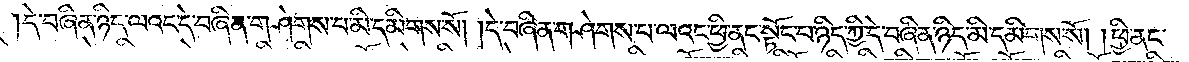དེ་བཞིན་ཉིད་ལའང་དེ་བཞིན་གཤེགས་པ་མི་དམིགས་སོ། །དེ་བཞིན་གཤེགས་པ་ལའང་ཕྱི་ནང་སྟོང་པ་ཉིད་ཀྱི་དེ་བཞིན་ཉིད་མི་དམིགས་སོ། །ཕྱི་ནང་
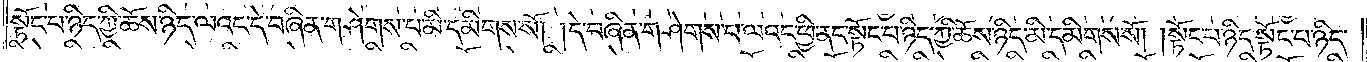སྟོང་པ་ཉིད་ཀྱི་ཆོས་ཉིད་ལའང་དེ་བཞིན་གཤེགས་པ་མི་དམིགས་སོ། །དེ་བཞིན་གཤེགས་པ་ལའང་ཕྱི་ནང་སྟོང་པ་ཉིད་ཀྱི་ཆོས་ཉིད་མི་དམིགས་སོ། །སྟོང་པ་ཉིད་སྟོང་པ་ཉིད་
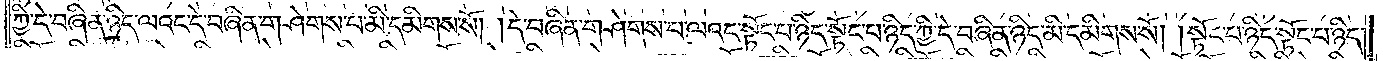ཀྱི་དེ་བཞིན་ཉིད་ལའང་དེ་བཞིན་གཤེགས་པ་མི་དམིགས་སོ། དེ་བཞིན་གཤེགས་པ་ལའང་སྟོང་པ་ཉིད་སྟོང་པ་ཉིད་ཀྱི་དེ་བཞིན་ཉིད་མི་དམིགས་སོ། །སྟོང་པ་ཉིད་སྟོང་པ་ཉིད་
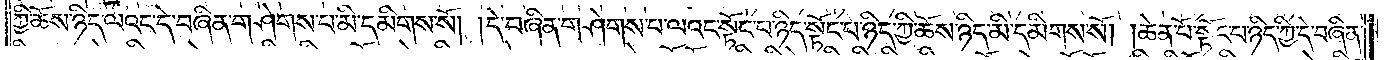ཀྱི་ཆོས་ཉིད་ལའང་དེ་བཞིན་གཤེགས་པ་མི་དམིགས་སོ། །དེ་བཞིན་གཤེགས་པ་ལའང་སྟོང་པ་ཉིད་སྟོང་པ་ཉིད་ཀྱི་ཆོས་ཉིད་མི་དམིགས་སོ། །ཆེན་པོ་སྟོང་པ་ཉིད་ཀྱི་དེ་བཞིན་
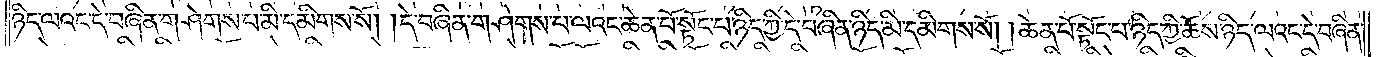ཉིད་ལའང་དེ་བཞིན་གཤེགས་པ་མི་དམིགས་སོ། །དེ་བཞིན་གཤེགས་པ་ལའང་ཆེན་པོ་སྟོང་པ་ཉིད་ཀྱི་དེ་བཞིན་ཉིད་མི་དམིགས་སོ། །ཆེན་པོ་སྟོང་པ་ཉིད་ཀྱི་ཆོས་ཉིད་ལའང་དེ་བཞིན་
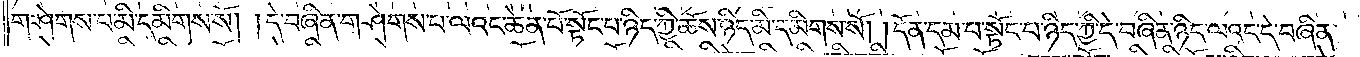གཤེགས་པ་མི་དམིགས་སོ། །དེ་བཞིན་གཤེགས་པ་ལའང་ཆེན་པོ་སྟོང་པ་ཉིད་ཀྱི་ཆོས་ཉིད་མི་དམིགས་སོ། །དོན་དམ་པ་སྟོང་པ་ཉིད་ཀྱི་དེ་བཞིན་ཉིད་ལའང་དེ་བཞིན་
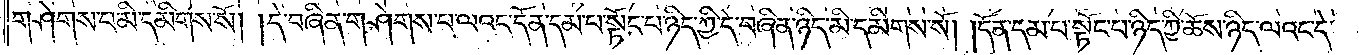གཤེགས་པ་མི་དམིགས་སོ། །དེ་བཞིན་གཤེགས་པ་ལའང་དོན་དམ་པ་སྟོང་པ་ཉིད་ཀྱི་དེ་བཞིན་ཉིད་མི་དམིགས་སོ། །དོན་དམ་པ་སྟོང་པ་ཉིད་ཀྱི་ཆོས་ཉིད་ལའང་དེ་
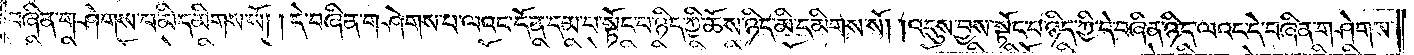བཞིན་གཤེགས་པ་མི་དམིགས་སོ། །དེ་བཞིན་གཤེགས་པ་ལའང་དོན་དམ་པ་སྟོང་པ་ཉིད་ཀྱི་ཆོས་ཉིད་མི་དམིགས་སོ། །འདུས་བྱས་སྟོང་པ་ཉིད་ཀྱི་དེ་བཞིན་ཉིད་ལའང་དེ་བཞིན་གཤེགས་
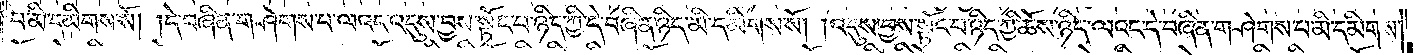པ་མི་དམིགས་སོ། །དེ་བཞིན་གཤེགས་པ་ལའང་འདུས་བྱས་སྟོང་པ་ཉིད་ཀྱི་དེ་བཞིན་ཉིད་མི་དམིགས་སོ། །འདུས་བྱས་སྟོང་པ་ཉིད་ཀྱི་ཆོས་ཉིད་ལའང་དེ་བཞིན་གཤེགས་པ་མི་དམིགས་
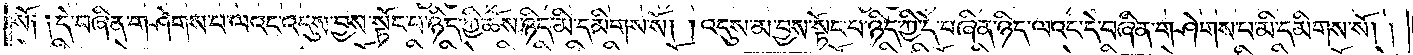སོ༑ ༑དེ་བཞིན་གཤེགས་པ་ལའང་འདུས་བྱས་སྟོང་པ་ཉིད་ཀྱི་ཆོས་ཉིད་མི་དམིགས་སོ། །འདུས་མ་བྱས་སྟོང་པ་ཉིད་ཀྱི་དེ་བཞིན་ཉིད་ལའང་དེ་བཞིན་གཤེགས་པ་མི་དམིགས་སོ། །
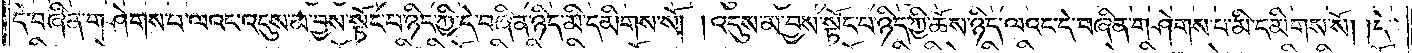དེ་བཞིན་གཤེགས་པ་ལའང་འདུས་མ་བྱས་སྟོང་པ་ཉིད་ཀྱི་དེ་བཞིན་ཉིད་མི་དམིགས་སོ། །འདུས་མ་བྱས་སྟོང་པ་ཉིད་ཀྱི་ཆོས་ཉིད་ལའང་དེ་བཞིན་གཤེགས་པ་མི་དམིགས་སོ། །དེ་
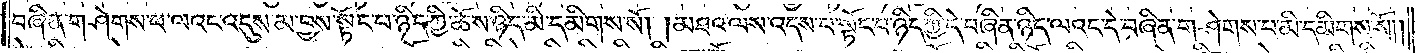བཞིན་གཤེགས་པ་ལའང་འདུས་མ་བྱས་སྟོང་པ་ཉིད་ཀྱི་ཆོས་ཉིད་མི་དམིགས་སོ། །མཐའ་ལས་འདས་པ་སྟོང་པ་ཉིད་ཀྱི་དེ་བཞིན་ཉིད་ལའང་དེ་བཞིན་གཤེགས་པ་མི་དམིགས་སོ༎
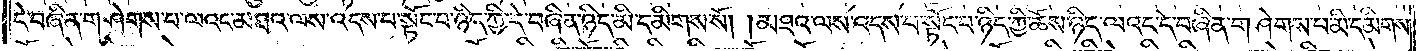དེ་བཞིན་གཤེགས་པ་ལའང་མཐའ་ལས་འདས་པ་སྟོང་པ་ཉིད་ཀྱི་དེ་བཞིན་ཉིད་མི་དམིགས་སོ། །མཐའ་ལས་འདས་པ་སྟོང་པ་ཉིད་ཀྱི་ཆོས་ཉིད་ལའང་དེ་བཞིན་གཤེགས་པ་མི་དམིགས་
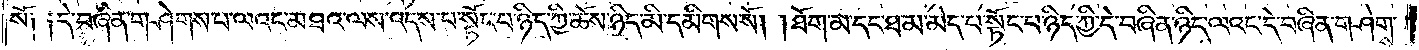སོ༑ ༑དེ་བཞིན་གཤེགས་པ་ལའང་མཐའ་ལས་འདས་པ་སྟོང་པ་ཉིད་ཀྱི་ཆོས་ཉིད་མི་དམིགས་སོ། །ཐོག་མ་དང་ཐ་མ་མེད་པ་སྟོང་པ་ཉིད་ཀྱི་དེ་བཞིན་ཉིད་ལའང་དེ་བཞིན་གཤེགས་
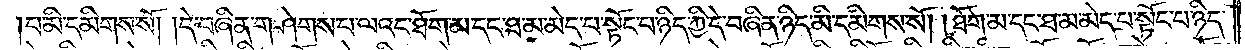པ་མི་དམིགས་སོ། །དེ་བཞིན་གཤེགས་པ་ལའང་ཐོག་མ་དང་ཐ་མ་མེད་པ་སྟོང་པ་ཉིད་ཀྱི་དེ་བཞིན་ཉིད་མི་དམིགས་སོ། །ཐོག་མ་དང་ཐ་མ་མེད་པ་སྟོང་པ་ཉིད་
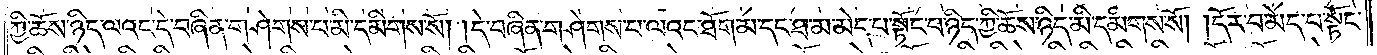ཀྱི་ཆོས་ཉིད་ལའང་དེ་བཞིན་གཤེགས་པ་མི་དམིགས་སོ། །དེ་བཞིན་གཤེགས་པ་ལའང་ཐོག་མ་དང་ཐ་མ་མེད་པ་སྟོང་པ་ཉིད་ཀྱི་ཆོས་ཉིད་མི་དམིགས་སོ། །དོར་བ་མེད་པ་སྟོང་
